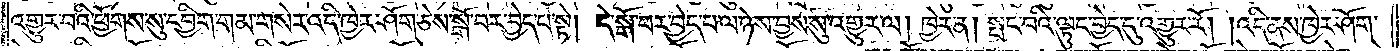འགྱུར་བའི་ཕྱོགས་སུ་དབྱིག་གམ་གསེར་འདི་ཁྱེར་ཤོག་ཅེས་སྒོ་བར་བྱེད་པ་སྟེ། དེ་སྒོ་བར་བྱེད་པ་ལ་ཉེས་བྱས་སུ་འགྱུར་ལ། ཁྱེར་ན། སྤང་བའི་ལྟུང་བྱེད་དུ་འགྱུར་རོ། །འདི་ནས་ཁྱེར་ཤོག་
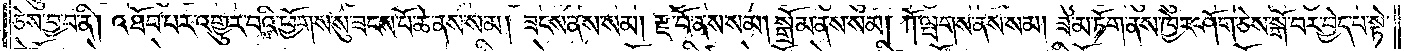ཅེས་བྱ་བ་ནི། འཐོབ་པར་འགྱུར་བའི་ཕྱོགས་སུ་ཟངས་པོ་ཆེ་ནས་སམ། ཟངས་ནས་སམ། རྫ་བོ་ནས་སམ། སྒྲོམ་ནས་སམ། ཀོ་ལྤགས་ནས་སམ། ཟ་མ་ཏོག་ནས་ཁྱེར་ཤོག་ཅེས་སྒོ་བར་བྱེད་པ་སྟེ་
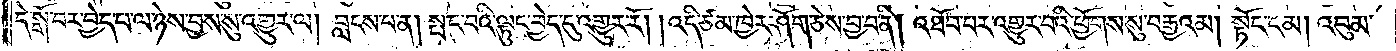དེ་སྒོ་བར་བྱེད་པ་ལ་ཉེས་བྱས་སུ་འགྱུར་ལ། བླངས་པ་ན། སྤང་བའི་ལྟུང་བྱེད་དུ་འགྱུར་རོ། །འདི་ཙམ་ཁྱེར་ཤོག་ཅེས་བྱ་བ་ནི། འཐོབ་པར་འགྱུར་བའི་ཕྱོགས་སུ་བརྒྱའམ། སྟོང་ངམ། འབུམ་
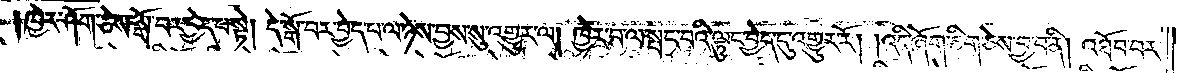།ཁྱེར་ཤོག་ཅེས་སྒོ་བར་བྱེད་པ་སྟེ། དེ་སྒོ་བར་བྱེད་པ་ལ་ཉེས་བྱས་སུ་འགྱུར་ལ། ཁྱེར་བ་ལ་སྤང་བའི་ལྟུང་བྱེད་དུ་འགྱུར་རོ། །འདི་ཞོག་ཅིག་ཅེས་བྱ་བ་ནི། འཐོབ་པར་
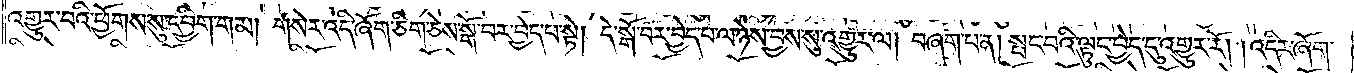འགྱུར་བའི་ཕྱོགས་སུ་དབྱིག་གམ། གསེར་འདི་ཞོག་ཅིག་ཅེས་སྒོ་བར་བྱེད་པ་སྟེ། དེ་སྒོ་བར་བྱེད་པ་ལ་ཉེས་བྱས་སུ་འགྱུར་ལ། བཞག་པ་ན། སྤང་བའི་ལྟུང་བྱེད་དུ་འགྱུར་རོ། །འདིར་ཞོག་
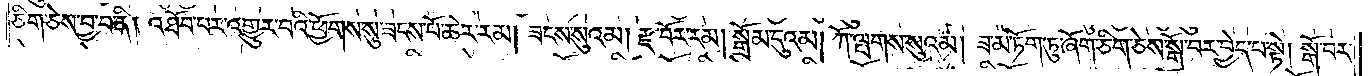ཅིག་ཅེས་བྱ་བ་ནི། འཐོབ་པར་འགྱུར་བའི་ཕྱོགས་སུ་ཟངས་པོ་ཆེར་རམ། ཟངས་སུའམ། རྫ་བོར་རམ། སྒྲོམ་དུའམ། ཀོ་ལྤགས་སུའམ། ཟ་མ་ཏོག་ཏུ་ཞོག་ཅིག་ཅེས་སྒོ་བར་བྱེད་པ་སྟེ། སྒོ་བར་
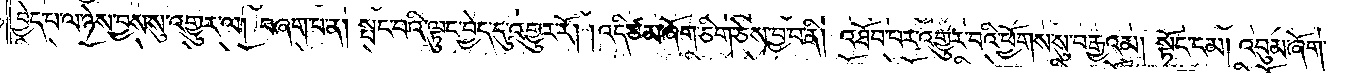བྱེད་པ་ལ་ཉེས་བྱས་སུ་འགྱུར་ལ། བཞག་པ་ན། སྤང་བའི་ལྟུང་བྱེད་དུ་འགྱུར་རོ། །འདི་ཙམ་ཞོག་ཅིག་ཅེས་བྱ་བ་ནི། འཐོབ་པར་འགྱུར་བའི་ཕྱོགས་སུ་བརྒྱའམ། སྟོང་ངམ། འབུམ་ཞོག་
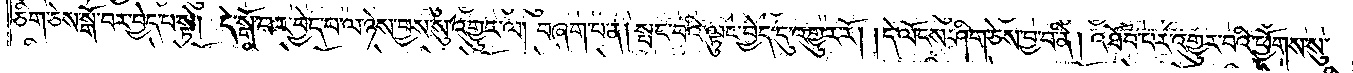ཅིག་ཅེས་སྒོ་བར་བྱེད་པ་སྟེ། དེ་སྒོ་བར་བྱེད་པ་ལ་ཉེས་བྱས་སུ་འགྱུར་ལ། བཞག་པ་ན། སྤང་བའི་ལྟུང་བྱེད་དུ་འགྱུར་རོ། །དེ་ལོངས་ཤིག་ཅེས་བྱ་བ་ནི། འཐོབ་པར་འགྱུར་བའི་ཕྱོགས་སུ་
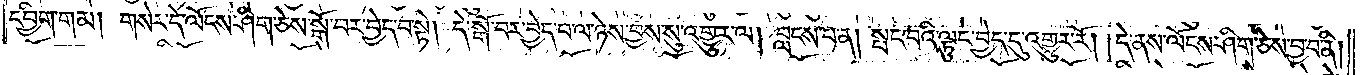དབྱིག་གམ། གསེར་དེ་ལོངས་ཤིག་ཅེས་སྒོ་བར་བྱེད་པ་སྟེ། དེ་སྒོ་བར་བྱེད་པ་ལ་ཉེས་བྱས་སུ་འགྱུར་ལ། བླངས་པ་ན། སྤང་བའི་ལྟུང་བྱེད་དུ་འགྱུར་རོ། །དེ་ནས་ལོངས་ཤིག་ཅེས་བྱ་བ་ནི།
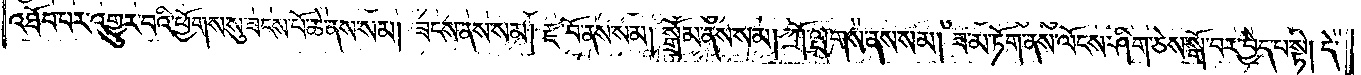འཐོབ་པར་འགྱུར་བའི་ཕྱོགས་སུ་ཟངས་པོ་ཆེ་ནས་སམ། ཟངས་ནས་སམ། རྫ་བོ་ནས་སམ། སྒྲོམ་ནས་སམ། ཀོ་ལྤགས་ནས་སམ། ཟ་མ་ཏོག་ནས་ལོངས་ཤིག་ཅེས་སྒོ་བར་བྱེད་པ་སྟེ། དེ་
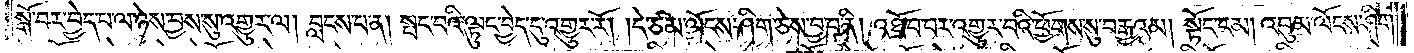སྒོ་བར་བྱེད་པ་ལ་ཉེས་བྱས་སུ་འགྱུར་ལ། བླངས་པ་ན། སྤང་བའི་ལྟུང་བྱེད་དུ་འགྱུར་རོ། །དེ་ཙམ་ལོངས་ཤིག་ཅེས་བྱ་བ་ནི། འཐོབ་པར་འགྱུར་བའི་ཕྱོགས་སུ་བརྒྱའམ། སྟོང་ངམ། འབུམ་ལོངས་ཤིག་
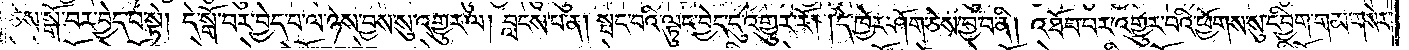ཅེས་སྒོ་བར་བྱེད་པ་སྟེ། དེ་སྒོ་བར་བྱེད་པ་ལ་ཉེས་བྱས་སུ་འགྱུར་ལ། བླངས་པ་ན། སྤང་པའི་ལྟུང་བྱེད་དུ་འགྱུར་རོ། །དེ་ཁྱེར་ཤོག་ཅེས་བྱ་བ་ནི། འཐོབ་པར་འགྱུར་བའི་ཕྱོགས་སུ་དབྱིག་གམ་གསེར་
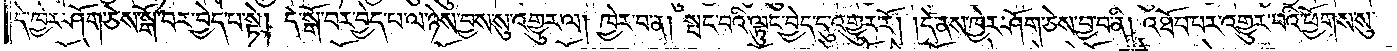དེ་ཁྱེར་ཤོག་ཅེས་སྒོ་བར་བྱེད་པ་སྟེ། དེ་སྒོ་བར་བྱེད་པ་ལ་ཉེས་བྱས་སུ་འགྱུར་ལ། ཁྱེར་བ་ན། སྤང་བའི་ལྟུང་བྱེད་དུ་འགྱུར་རོ། །དེ་ནས་ཁྱེར་ཤོག་ཅེས་བྱ་བ་ནི། འཐོབ་པར་འགྱུར་བའི་ཕྱོགས་སུ་
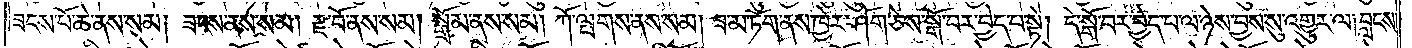ཟངས་པོ་ཆེ་ནས་སམ། ཟངས་ནས་སམ། རྫ་བོ་ནས་སམ། སྒྲོམ་ནས་སམ། ཀོ་ལྤགས་ནས་སམ། ཟ་མ་ཏོག་ནས་ཁྱེར་ཤོག་ཅེས་སྒོ་བར་བྱེད་པ་སྟེ། དེ་སྒོ་བར་བྱེད་པ་ལ་ཉེས་བྱས་སུ་འགྱུར་ལ།བླངས་
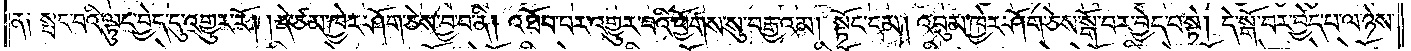ན། སྤང་བའི་ལྟུང་བྱེད་དུ་འགྱུར་རོ། །དེ་ཙམ་ཁྱེར་ཤོག་ཅེས་བྱ་བ་ནི། འཐོབ་པར་འགྱུར་བའི་ཕྱོགས་སུ་བརྒྱའམ། སྟོང་ངམ། འབུམ་ཁྱེར་ཤོག་ཅེས་སྒོ་བར་བྱེད་པ་སྟེ། དེ་སྒོ་བར་བྱེད་པ་ལ་ཉེས་
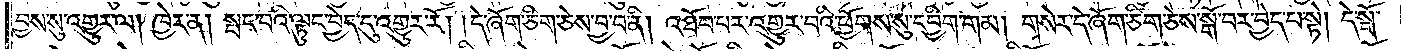བྱས་སུ་འགྱུར་ལ། ཁྱེར་ན། སྤང་པའི་ལྟུང་བྱེད་དུ་འགྱུར་རོ། །དེ་ཞོག་ཅིག་ཅེས་བྱ་བ་ནི། འཐོབ་པར་འགྱུར་བའི་ཕྱོགས་སུ་དབྱིག་གམ། གསེར་དེ་ཞོག་ཅིག་ཅེས་སྒོ་བར་བྱེད་པ་སྟེ། དེ་སྒོ་
